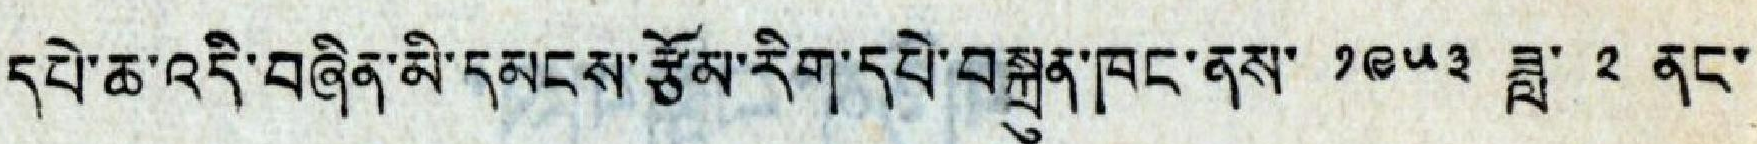དཔེ་ཆ་འདི་བཞིན་མི་དམངས་རྩོམ་རིག་དཔེ་བསྐྲུན་ཁང་ནས་ ༡༩༥༣ ཟླ་ ༢ ནང་
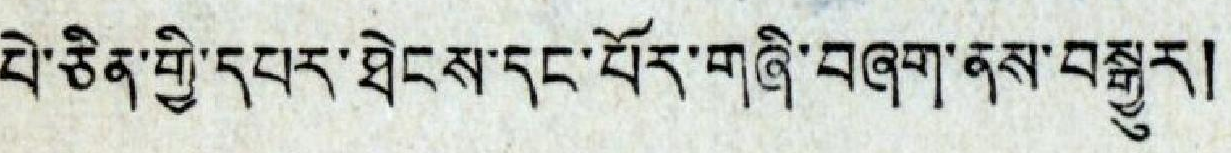པེ་ཅིན་གྱི་དཔར་ཐེངས་དང་པོར་གཞི་བཞག་ནས་བསྒྱུར།
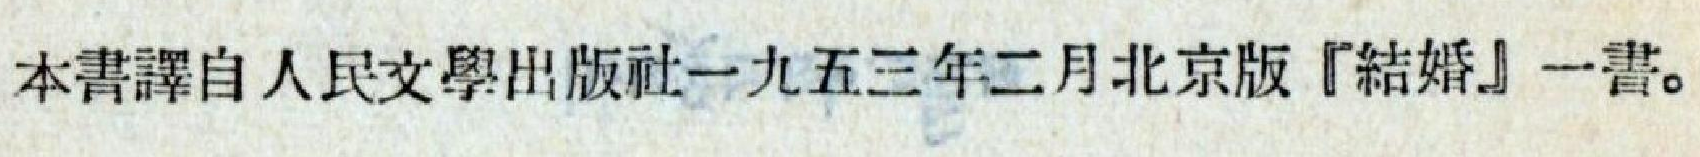本書譯自人民文學出版社一九五三年二月北京版『結婚』一書。
